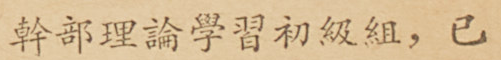幹部理論學習初級組，已
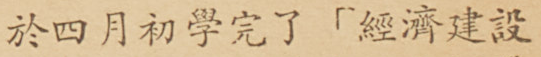於四月初學完了「經濟建設
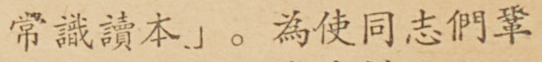常識讀本」。為使同志們鞏
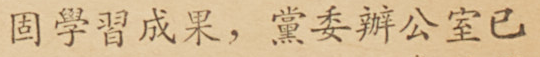固學習成果，黨委辦公室已
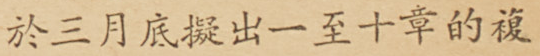於三月底擬出一至十章的複
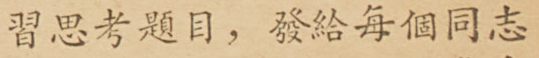習思考題目，發給每個同志
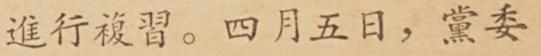進行複習。四月五日，黨委
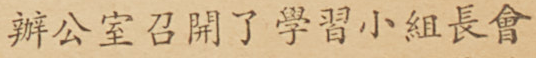辦公室召開了學習小組長會
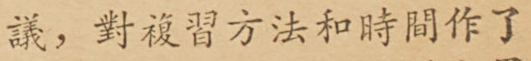議，對複習方法和時間作了
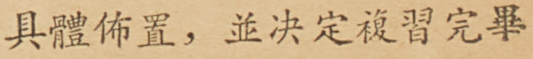具體佈置，並決定複習完畢
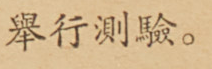舉行測驗。
